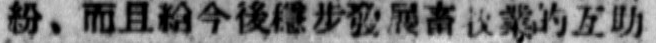紛，而且給今後穩步發展畜牧業的互助
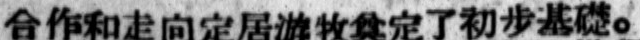合作和走向定居遊牧奠定了初步基礎。
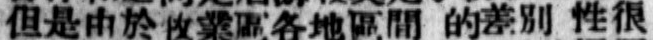但是由於牧業區各地區間 的差別 性很
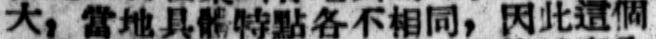大，當地具體特點各不相同，因此這個
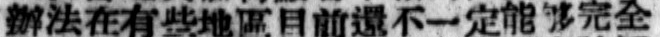辦法在有些地區目前還不一定能夠完全
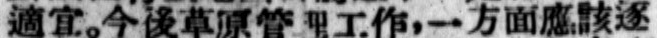適宜。今後草原管理工作，一方面應該逐
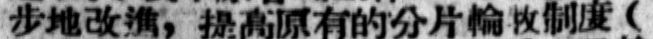步地改進，提高原有的分片輪牧制度（
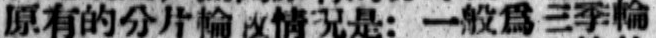原有的分片輪牧情況是：一般爲三季輪
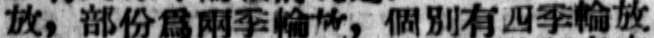放，部份爲兩季輪放，個別有四季輪放
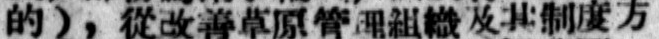的），從改善草原管理組織及其制度方
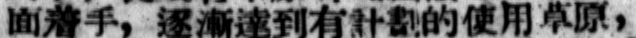面着手，逐漸達到有計劃的使用草原，
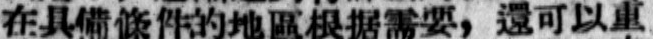在具備條件的地區根據需要，還可以重
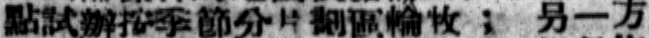點試辦按季節分片劃區輪牧 ； 另一方
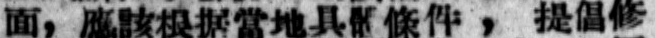面，應該根據當地具體條件 ， 提倡修
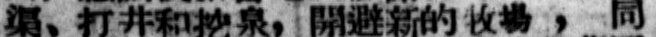渠、打井和挖泉，開避新的牧場 ， 同
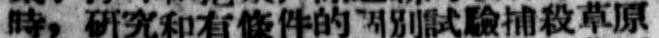時，研究和有條件的個別試驗捕殺草原
